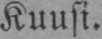Kuusi.
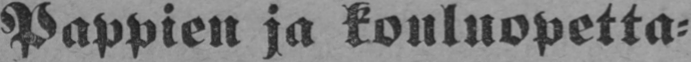Pappien ja kouluopetta-
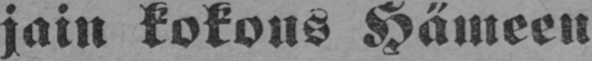jain kokous Hämeen-
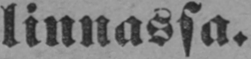linnassa.
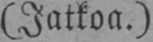(Jatkoa.)
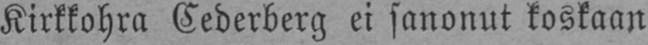Kirkkohra Cederberg ei sanonut koskaan
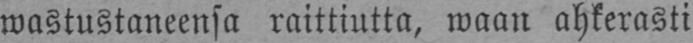wastustaneensa raittiutta, waan ahkerasti
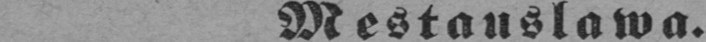Mestauslawa.
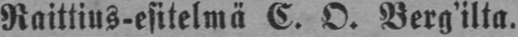Raittius-esitelmä C. O. Berg'iltä.
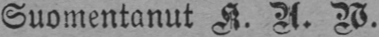Suomentanut K. A. W.
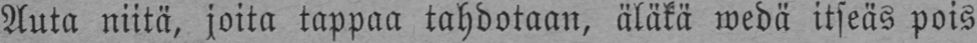Auta niitä, joita tappaa tahdotaan, äläkä wedä itseäs pois
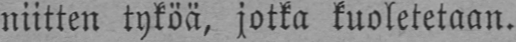niitten tyköä, jotka kuoletetaan.
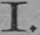I.
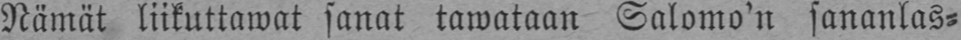Nämät liikuttawat sanat tawataan Salomo'n sananlas-
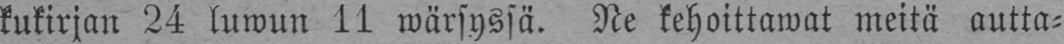kukirjan 24 luwun 11 wärsyssä. Ne kehoittawat meitä autta-
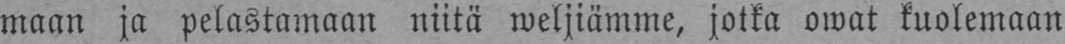maan ja pelastamaan niitä weljiämme, jotka owat kuolemaan
